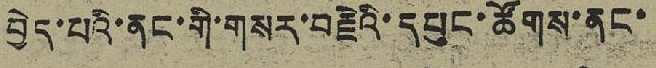བྱེད་པའི་ནང་གི་གསར་བརྗེའི་དཔུང་ཚོགས་ནང་
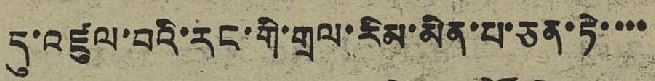དུ་འཛུལ་བའི་རང་གི་གྲལ་རིམ་མིན་པ་ཅན་ཏེ་་་་
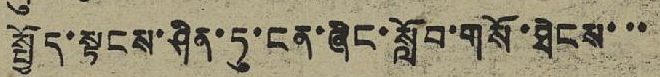སྤྱོད་སྟངས་ཤིན་ཏུ་ངན་ཞིང་སློབ་གསོ་ཐེངས་་་
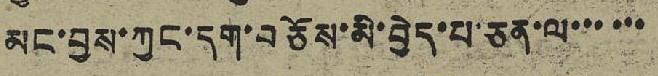མང་བྱས་ཀྱང་དག་བཅོས་མི་བྱེད་པ་ཅན་ལ་་་་་་
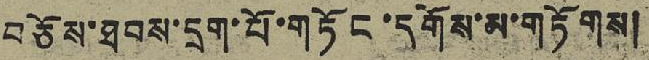བཅོས་ཐབས་དྲག་པོ་གཏོང་དགོས་མ་གཏོགས།
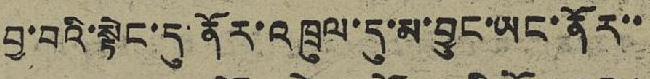བྱ་བའི་སྟེང་དུ་ནོར་འཁྲུལ་དུ་མ་བྱུང་ཡང་ནོར་་
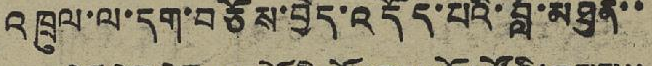འཁྲུལ་ལ་དག་བཅོས་བྱེད་འདོད་པའི་བློ་མཐུན་་
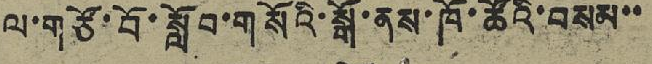ལ་གཙོ་བོ་སློབ་གསོའི་སྒོ་ནས་ཁོ་ཚོའི་བསམ་་
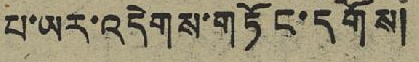པ་ཡར་འདེགས་གཏོང་དགོས།
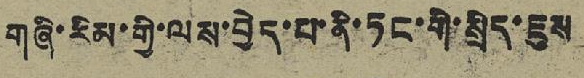གཞི་རིམ་གྱི་ལས་བྱེད་པ་ནི་ཏང་གི་སྲིད་ཇུས
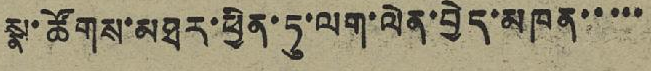སྣ་ཚོགས་མཐར་ཕྱིན་ཏུ་ལག་ལེན་བྱེད་མཁན་་་་་
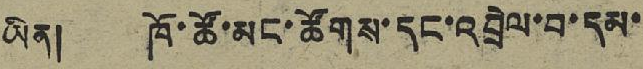ཡིན། ཁོ་ཚོ་མང་ཚོགས་དང་འབྲེལ་བ་དམ་
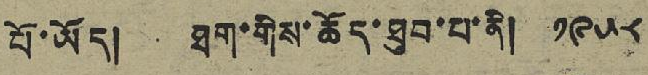པོ་ཡོད། ཐག་གིས་ཆོད་ཐུབ་པ་ནི། ༡༩༥༨
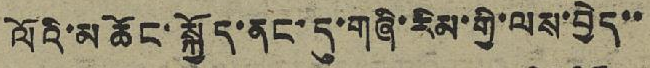ལོའི་མཆོང་སྐྱོད་ནང་དུ་གཞི་རིམ་གྱི་ལས་བྱེད་་
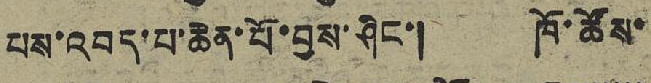པས་འབད་པ་ཆེན་པོ་བྱས་ཤིང་། ཁོ་ཚོས་
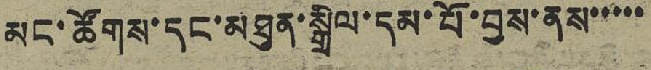མང་ཚོགས་དང་མཐུན་སྒྲིལ་དམ་པོ་བྱས་ནས་་་་་
